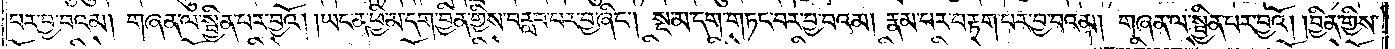པར་བྱ་བའམ། གཞན་ལ་སྦྱིན་པར་བྱའོ། །ཡང་ན་ཕྱི་མ་དག་བྱིན་གྱིས་བརླབ་པར་བྱ་ཞིང༌། སྔ་མ་དག་གཏང་བར་བྱ་བའམ། རྣམ་པར་བརྟག་པར་བྱ་བའམ། གཞན་ལ་སྦྱིན་པར་བྱའོ། །བྱིན་གྱིས་
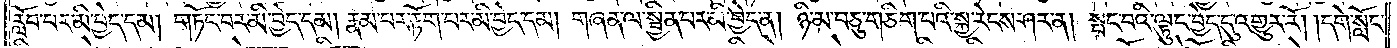རློབ་པར་མི་བྱེད་དམ། གཏོང་བར་མི་བྱེད་དམ། རྣམ་པར་རྟོག་པར་མི་བྱེད་དམ། གཞན་ལ་སྦྱིན་པར་མི་བྱེད་ན། ཉི་མ་བཅུ་གཅིག་པའི་སྐྱ་རེངས་ཤར་ན། སྤང་བའི་ལྟུང་བྱེད་དུ་འགྱུར་རོ། །དགེ་སློང་
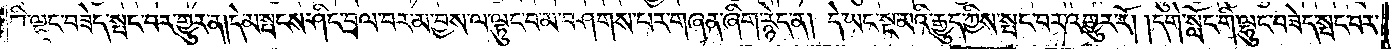གི་ལྷུང་བཟེད་སྤང་བར་གྱུར་ན། དེ་མ་སྤངས་ཤིང་བྲལ་བར་མ་བྱས་ལ་ལྟུང་བ་མ་བཤགས་པར་གཞན་ཞིག་རྙེད་ན། དེ་ཡང་སྔ་མའི་རྒྱུད་ཀྱིས་སྤང་བར་འགྱུར་རོ། །དགེ་སློང་གི་ལྷུང་བཟེད་སྤང་བར་
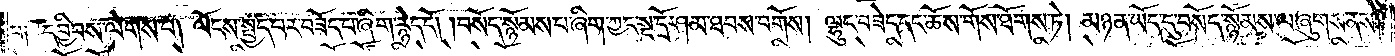བ༑ དབྱིབས་ལེགས་པ། ལོངས་སྤྱད་པར་བཟོད་པ་ཞིག་རྙེད་དོ། །བསོད་སྙོམས་པ་ཞིག་ཀྱང་སྔ་དྲོ་ཤམ་ཐབས་བགོས། ལྷུང་བཟེད་དང་ཆོས་གོས་ཐོགས་ཏེ། མཉན་ཡོད་དུ་བསོད་སྙོམས་ལ་ཞུགས་ནས།
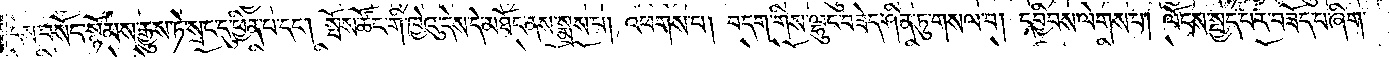དེས་བསོད་སྙོམས་རྒྱུས་ཏེ་སྲང་དུ་ཕྱིན་པ་དང༌། སྤོས་ཚོང་གི་ཁྱེའུ་དེས་དེ་མཐོང་ནས་སྨྲས་པ། འཕགས་པ། བདག་གིས་ལྷུང་བཟེད་ཤིན་ཏུ་གསལ་བ། དབྱིབས་ལེགས་པ། ལོངས་སྤྱད་པར་བཟོད་པ་ཞིག་
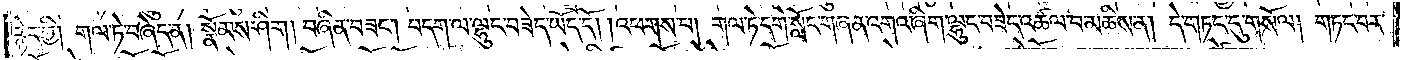རྙེད་ཀྱི། གལ་ཏེ་བཞེད་ན། སྣོམས་ཤིག །བཞིན་བཟང༌། བདག་ལ་ལྷུང་བཟེད་ཡོད་དོ། །འཕགས་པ། གལ་ཏེ་དགེ་སློང་གཞན་འགའ་ཞིག་ལྷུང་བཟེད་འཚལ་བ་མཆིས་ན། དེ་གཏང་དུ་གསོལ། གཏང་བར་
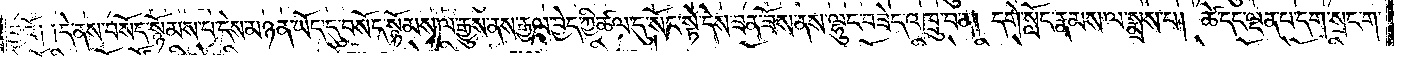བྱའོ༑ ༑དེ་ནས་བསོད་སྙོམས་པ་དེས་མཉན་ཡོད་དུ་བསོད་སྙོམས་ལ་རྒྱུས་ནས་རྒྱལ་བྱེད་ཀྱི་ཚལ་དུ་སོང་སྟེ་དེས་ཟན་ཟོས་ནས་ལྷུང་བཟེད་འཁྲུ་བ་ན། དགེ་སློང་རྣམས་ལ་སྨྲས་པ། ཚེ་དང་ལྡན་པ་དག་སྲང་ག་
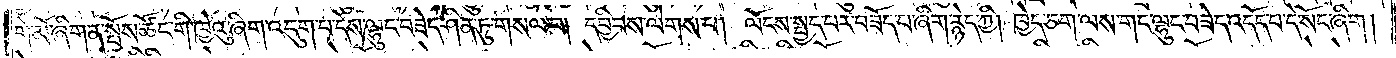གེ་མོ་ཞིག་ན་སྤོས་ཚོང་གི་ཁྱེའུ་ཞིག་འདུག་པ་དེས་ལྷུང་བཟེད་ཤིན་ཏུ་གསལ་བ། དབྱིབས་ལེགས་པ། ལོངས་སྤྱད་པར་བཟོད་པ་ཞིག་རྙེད་ཀྱི། ཁྱེད་ཅག་ལས་གང་ལྷུང་བཟེད་འདོད་པ་དེ་སོང་ཞིག།
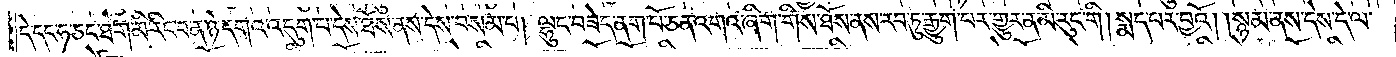དེ་དང་ཧ་ཅང་ཐག་མི་རིང་བ་ན་ཉེ་དགའ་འདུག་པ་དེས་ཐོས་ནས་དེས་བསམ་པ། ལྷུང་བཟེད་ནག་པོ་ཅན་འགའ་ཞིག་གིས་ཐོས་ནས་རབ་ཏུ་རྒྱུག་པར་གྱུར་ན་མི་རུང་གི། སྨད་པར་བྱའོ། །སྙམ་ནས་དེས་དེ་ལ་
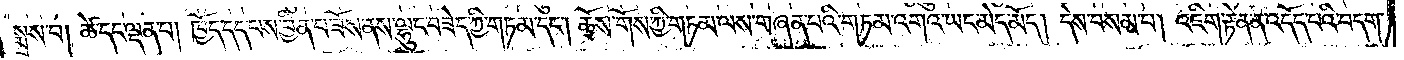སྨྲས་པ། ཚེ་དང་ལྡན་པ། ཁྱོད་དད་པས་བྱིན་པ་ཟོས་ནས་ལྷུང་བཟེད་ཀྱི་གཏམ་དང༌། ཆོས་གོས་ཀྱི་གཏམ་ལས་གཞན་པའི་གཏམ་འགའ་ཡང་མེད་མོད། དེས་བསམ་པ། འཇིག་རྟེན་ན་འདོད་པའི་བདག་
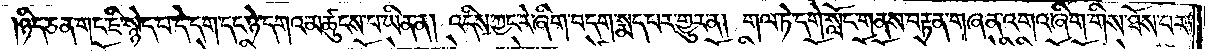ཉིད་ཅན་གང་ཇི་སྙེད་པ་དེ་དག་དང་ཉེ་དགའ་མཚུངས་པ་ཡིན་ན། འདིས་ཀྱང་རེ་ཞིག་བདག་སྨད་པར་གྱུར་ན། གལ་ཏེ་དགེ་སློང་གནས་བརྟན་གཞན་འགའ་ཞིག་གིས་ཐོས་པར་
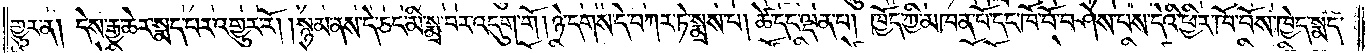གྱུར་ན། དེས་རྒྱ་ཆེར་སྨད་པར་འགྱུར་རོ། །སྙམ་ནས་དེ་ཅང་མི་སྨྲ་བར་འདུག་གོ །ཉེ་དགས་དེ་བཀར་ཏེ་སྨྲས་པ། ཚེ་དང་ལྡན་པ། ཁྱོད་ཀྱི་མཁན་པོ་དང་ཁོ་བོ་བཤེས་པས་དེའི་ཕྱིར་ཁོ་བོས་ཁྱེད་སྨད་
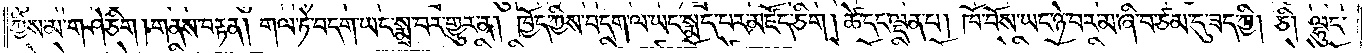ཀྱིས་མ་གཤེ་ཅིག །གནས་བརྟན། གལ་ཏེ་བདག་ཡང་སྨྲ་བར་གྱུར་ན། ཁྱོད་ཀྱིས་བདག་ལ་ཡང་སྨད་པར་མཛོད་ཅིག །ཚེ་དང་ལྡན་པ། ཁོ་བོས་ཡང་ཉེ་བར་མ་ཞི་བ་ཙམ་དུ་ཟད་ཀྱི། ཅི། ལྷུང་
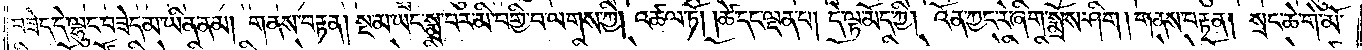བཟེད་དེ་ལྷུང་བཟེད་མ་ཡིན་ནམ། གནས་བརྟན། སྔ་མ་ཡང་སྨྲ་བར་མི་བགྱི་བ་ལགས་ཀྱི། འཚལ་ཏོ། །ཚེ་དང་ལྡན་པ། དེ་ལྟ་མོད་ཀྱི། འོན་ཀྱང་རེ་ཞིག་སྨྲོས་ཤིག །གནས་བརྟན། སྲང་ཆེ་གེ་མོ་
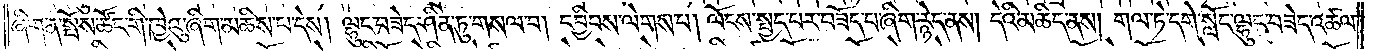ཞིག་ན་སྤོས་ཚོང་གི་ཁྱེའུ་ཞིག་མཆིས་པ་དེས། ལྷུང་བཟེད་ཤིན་ཏུ་གསལ་བ། དབྱིབས་ལེགས་པ། ལོངས་སྤྱད་པར་བཟོད་པ་ཞིག་རྙེད་ནས། དེའི་མཆིད་ནས། གལ་ཏེ་དགེ་སློང་ལྷུང་བཟེད་འཚལ་
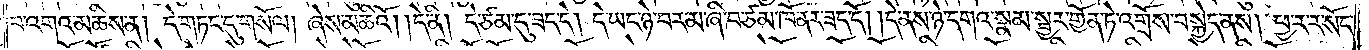བ་འགའ་མཆིས་ན། དེ་གཏང་དུ་གསོལ། ཞེས་མཆིའོ། །དེ་ནི། དེ་ཙམ་དུ་ཟད་དེ། དེ་ཡང་ཉེ་བར་མ་ཞི་བ་ཙམ་ཁོ་ནར་ཟད་དོ། །དེ་ནས་ཉེ་དགའ་སྣམ་སྦྱར་གྱོན་ཏེ་འགྲོས་བསྐྱེད་ནས། ཕྱ་ར་ར་སོང་
